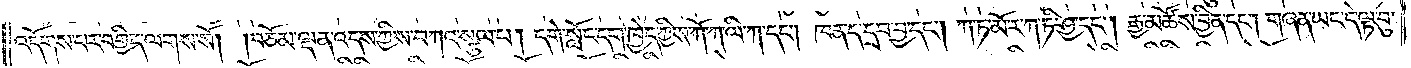འདོགས་པར་བགྱིད་ལགས་སོ། །བཅོམ་ལྡན་འདས་ཀྱིས་བཀའ་སྩལ་པ། དགེ་སློང་དག་ཁྱེད་ཀྱིས་ཀོ་ལ་ལི་ཀ་དང༌། ཁན་ད་དྲབ་བྱ་དང༌། ཀ་ཏ་མོ་ར་ཀ་ཏི་ཤྱ་དང༌། རྒྱ་མཚོས་བྱིན་དང༌། གཞན་ཡང་དེ་ལྟ་བུ་
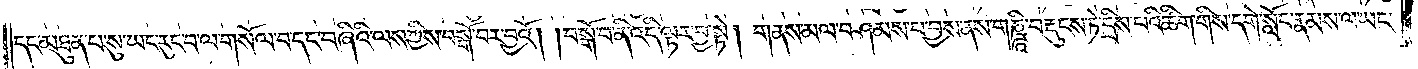དང་མཐུན་པ་སུ་ཡང་རུང་བ་ལ་གསོལ་བ་དང་བཞིའི་ལས་ཀྱིས་བསྒོ་བར་བྱའོ། །བསྒོ་བ་ནི་འདི་ལྟར་བྱ་སྟེ། གནས་མལ་བཤམས་པ་བྱས་ནས་གཎྜཱི་བརྡུངས་ཏེ་དྲིས་པའི་ཚིག་གིས་དགེ་སློང་རྣམས་ལ་ཡང་
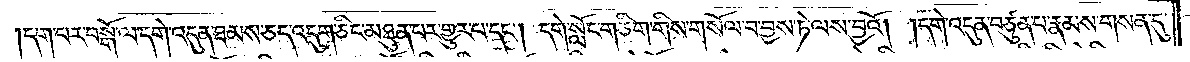དག་པར་བསྒོ་ལ་དགེ་འདུན་ཐམས་ཅད་འདུག་ཅིང་མཐུན་པར་གྱུར་པ་དང༌། དགེ་སློང་གཅིག་གིས་གསོལ་བ་བྱས་ཏེ་ལས་བྱའོ། །དགེ་འདུན་བཙུན་པ་རྣམས་གསན་དུ་
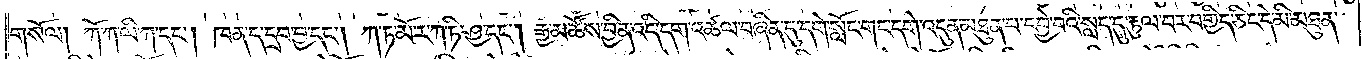གསོལ། ཀོ་ཀ་ལི་ཀ་དང༌། ཁན་ད་དྲབ་བྱ་དང༌། ཀ་ཏ་མོ་ར་ཀ་ཏི་ཤྱ་དང༌། རྒྱ་མཚོས་བྱིན་འདི་དག་འཚལ་བཞིན་དུ་དགེ་སློང་གང་དགེ་འདུན་མཐུན་པ་དབྱེ་བའི་སླད་དུ་རྟུལ་བར་བགྱིད་ཅིང་དེ་མི་མཐུན་
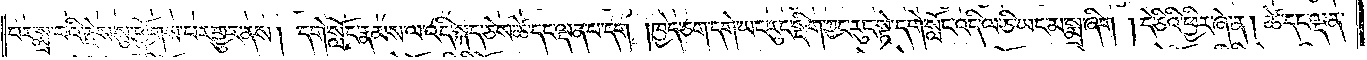པར་སྨྲ་བའི་རྗེས་སུ་ཕྱོགས་པར་གྱུར་ནས། དགེ་སློང་རྣམས་ལ་འདི་སྐད་ཅེས་ཚེ་དང་ལྡན་པ་དག །ཁྱེད་ཅག་དགེ་ཡང་རུང་སྡིག་ཀྱང་རུང་སྟེ་དགེ་སློང་འདི་ལ་ཅི་ཡང་མ་སྨྲ་ཞིག །དེ་ཅིའི་ཕྱིར་ཞེ་ན། ཚེ་དང་ལྡན་
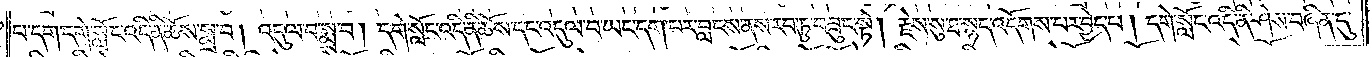པ་དག་དགེ་སློང་འདི་ནི་ཆོས་སྨྲ་བ། འདུལ་བ་སྨྲ་བ། དགེ་སློང་འདི་ནི་ཆོས་དང་འདུལ་བ་ཡང་དག་པར་བླངས་ནས་རབ་ཏུ་བཟུང་སྟེ། རྗེས་སུ་ཐ་སྙད་འདོགས་པར་བྱེད་པ། དགེ་སློང་འདི་ནི་ཤེས་བཞིན་དུ་
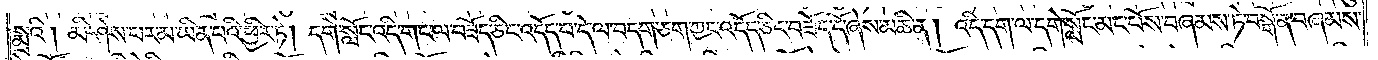སྨྲའི། མི་ཤེས་པར་མ་ཡིན་པའི་ཕྱིར་ཏེ། དགེ་སློང་འདི་གང་ལ་བཟོད་ཅིང་འདོད་པ་དེ་ལ་བདག་ཅག་ཀྱང་འདོད་ཅིང་བཟོད་དོ་ཞེས་མཆི་ན། འདི་དག་ལ་དགེ་སློང་མང་པོས་བཞམས་ཏེ་བསྒོ་ན་བཞམས་
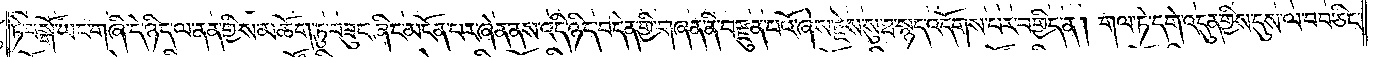ཏེ་བསྒོ་ཡང་གཞི་དེ་ཉིད་ལ་ནན་གྱིས་མཆོག་ཏུ་བཟུང་ཞིང་མངོན་པར་ཞེན་ནས་འདི་ཉིད་བདེན་གྱི་གཞན་ནི་བརྫུན་པའོ་ཞེས་རྗེས་སུ་ཐ་སྙད་འདོགས་པར་བགྱིད་ན། གལ་ཏེ་དགེ་འདུན་གྱིས་དུས་ལ་བབ་ཅིང་
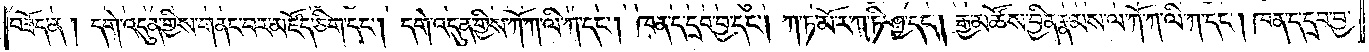བཟོད་ན། དགེ་འདུན་གྱིས་གནང་བར་མཛོད་ཅིག་དང༌། དགེ་འདུན་གྱིས་ཀོ་ཀ་ལི་ཀ་དང༌། ཁན་ད་དྲབ་བྱ་དང༌། ཀ་ཏ་མོ་ར་ཀ་ཏི་ཤྱ་དང༌། རྒྱ་མཚོས་བྱིན་རྣམས་ལ་ཀོ་ཀ་ལི་ཀ་དང༌། ཁན་ད་དྲབ་བྱ་
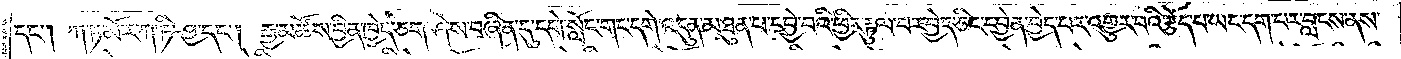དང༌། ཀ་ཏ་མོ་ར་ཀ་ཏི་ཤྱ་དང༌།<gap>རྒྱ་མཚོས་བྱིན་ཁྱེད་ཅག་ཤེས་བཞིན་དུ་དགེ་སློང་གང་དགེ་འདུན་མཐུན་པ་དབྱེ་བའི་ཕྱིར་རྟུལ་བར་བྱེད་ཅིང་དབྱེན་བྱེད་པར་འགྱུར་པའི་རྩོད་པ་ཡང་དག་པར་བླངས་ནས་
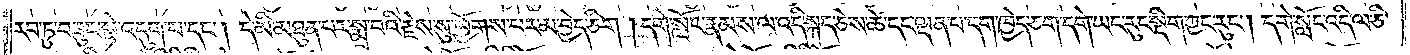རབ་ཏུ་བཟུང་སྟེ་འདུག་པ་དང༌། དེ་མི་མཐུན་པར་སྨྲ་བའི་རྗེས་སུ་ཕྱོགས་པར་མ་བྱེད་ཅིག །དགེ་སློང་རྣམས་ལ་འདི་སྐད་ཅེས་ཚེ་དང་ལྡན་པ་དག་ཁྱེད་ཅག་དགེ་ཡང་རུང་སྡིག་ཀྱང་རུང༌། དགེ་སློང་འདི་ལ་ཅི་
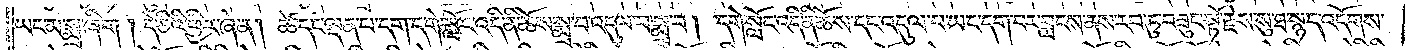ཡང་མ་སྨྲ་ཞིག །དེ་ཅིའི་ཕྱིར་ཞེ་ན། ཚེ་དང་ལྡན་པ་དག་དགེ་སློང་འདི་ནི་ཆོས་སྨྲ་བ་འདུལ་བ་སྨྲ་བ། དགེ་སློང་འདི་ནི་ཆོས་དང་འདུལ་བ་ཡང་དག་པར་བླངས་ནས་རབ་ཏུ་བཟུང་སྟོ་རྗེས་སུ་ཐ་སྙད་འདོགས་
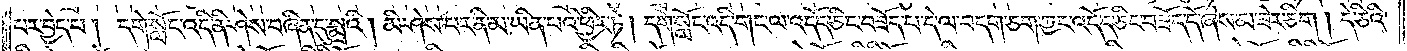པར་བྱེད་པ། དགེ་སློང་འདི་ནི་ཤེས་བཞིན་དུ་སྨྲའི། མི་ཤེས་པར་ནི་མ་ཡིན་པའི་ཕྱིར་ཏེ། དགེ་སློང་འདི་གང་ལ་འདོད་ཅིང་བཟོད་པ་དེ་ལ་བདག་ཅག་ཀྱང་འདོད་ཅིང་བཟོད་དོ་ཞེས་མ་ཟེར་ཅིག །དེ་ཅིའི་
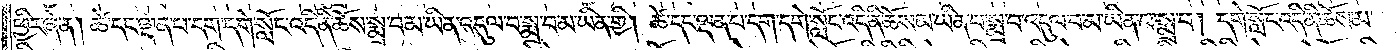ཕྱིར་ཞེ་ན། ཚེ་དང་ལྡན་པ་དག་དགེ་སློང་འདི་ནི་ཆོས་སྨྲ་བ་མ་ཡིན་འདུལ་བ་སྨྲ་བ་མ་ཡིན་གྱི། ཚེ་དང་ལྡན་པ་དག་དགེ་སློང་འདི་ནི་ཆོས་མ་ཡིན་པ་སྨྲ་བ་འདུལ་བ་མ་ཡིན་པ་སྨྲ་བ། དགེ་སློང་འདི་ནི་ཆོས་མ་
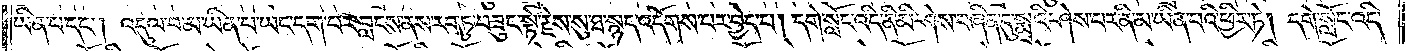ཡིན་པ་དང༌། འདུལ་བ་མ་ཡིན་པ་ཡང་དག་པར་བླངས་ནས་རབ་ཏུ་བཟུང་སྟེ་རྗེས་སུ་ཐ་སྙད་འདོགས་པར་བྱེད་པ། དགེ་སློང་འདི་ནི་མི་ཤེས་བཞིན་དུ་སྨྲའི་ཤེས་པར་ནི་མ་ཡིན་པའི་ཕྱིར་ཏེ། དགེ་སློང་འདི་
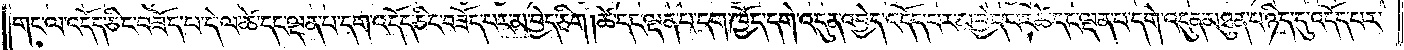གང་ལ་འདོད་ཅིང་བཟོད་པ་དེ་ལ་ཚེ་དང་ལྡན་པ་དག་འདོད་ཅིང་བཟོད་པར་མ་བྱེད་ཅིག །ཚེ་དང་ལྡན་པ་དག་ཁྱོད་དགེ་འདུན་འབྱེད་འདོད་པར་མ་བྱེད་པར་ཚེ་དང་ལྡན་པར་ཚེ་དང་ལྡན་པ་དགེ་འདུན་མཐུན་པ་ཉིད་དུ་འདོད་པར་
